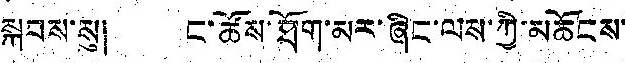སྐབས་སུ། ང་ཚོས་ཐོག་མར་ཞིང་ལས་ཀྱི་མཆོངས་
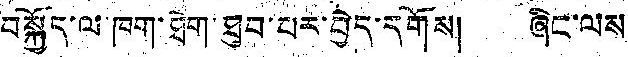བསྐྱོད་ལ་ཁག་ཐེག་ཐུབ་པར་བྱེད་དགོས། ཞིང་ལས
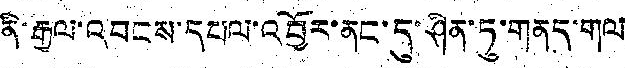ནི་རྒྱལ་འབངས་དཔལ་འབྱོར་ནང་དུ་ཤིན་ཏུ་གནད་གལ
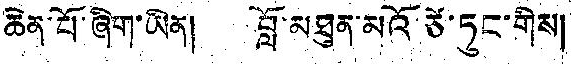ཆེན་པོ་ཞིག་ཡིན། བློ་མཐུན་མའོ་ཙེ་ཏུང་གིས།
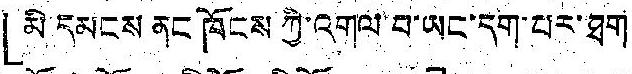「མི དམངས ནང ཁོངས ཀྱི་འགལ་བ་ཡང་དག་པར་ཐག
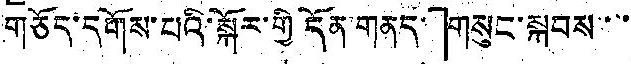གཅོད་དགོས་པའི་སྐོར་གྱི དོན་གནད་」གསུང་སྐབས་་་
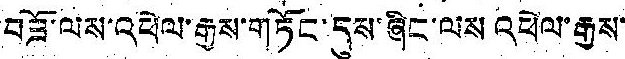བཟོ་ལས་འཕེལ་རྒྱས་གཏོང་དུས་ཞིང་ལས འཕེལ་རྒྱས་
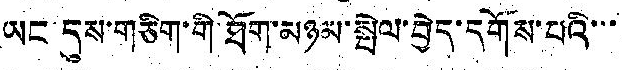ཡང དུས་གཅིག་གི་ཐོག་མཉམ་སྤེལ་བྱེད་དགོས་པའི་་་
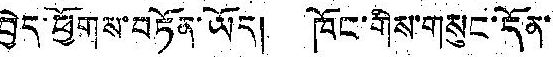བྱེད་ཕྱོགས་བཏོན་ཡོད། ཁོང་གིས་གསུང་དོན་
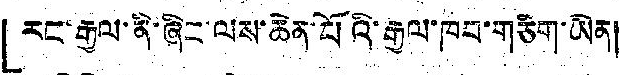「རང་རྒྱལ་ནི་ཞིང་ལས་ཆེན་པོའི་རྒྱལ་ཁབ་གཅིག་ཡིན།
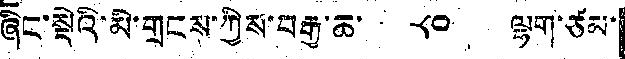ཞིང་སྡེའི་མི་གྲངས་ཀྱིས་བརྒྱ་ཆ་ ༨༠ ལྷག་ཙམ་
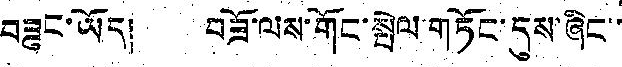བཟུང་ཡོད། བཟོ་ལས་གོང་སྤེལ་གཏོང་དུས་ཞིང་་
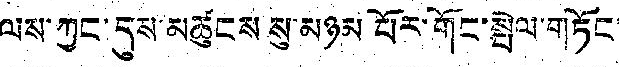ལས་ཀྱང་དུས་མཚུངས་སུ་མཉམ པོར་གོང་སྤེལ་གཏོང་
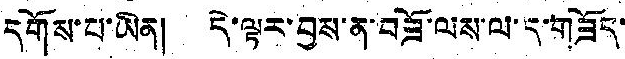དགོས་པ་ཡིན། དེ་ལྟར་བྱས་ན་བཟོ་ལས་ལ་ད་གཟོད་
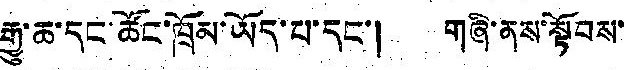རྒྱུ་ཆ་དང་ཚོང་ཁྲོམ་ཡོད་པ་དང་། གཞི་ནས་སྟོབས་
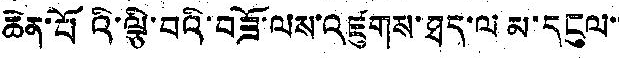ཆེན་པོའི་ལྕི་བའི་བཟོ་ལས་འཛུགས་ཐད་ལ མ་དངུལ་་
